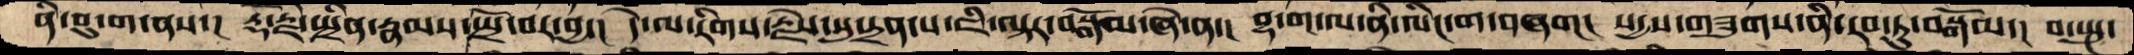ནི་བུ་ག་ནས་།  རྡོ་རྗེ་སྤྲིན་རྣམས་སྤྲོ་བར་བྱ་།  དེ་ལ་རིགས་རྗེས་སུ་དྲན་པ་ཇི་ལྟར་བསྒོམ་ཞེ་ན་།  བྷ་ག་ལ་ནི་ལིང་ག་བཞག།  སདྱས་་གཟུགས་ནི་རབ་ཏུ་བསྒོམ་།  བ་སྤུ་
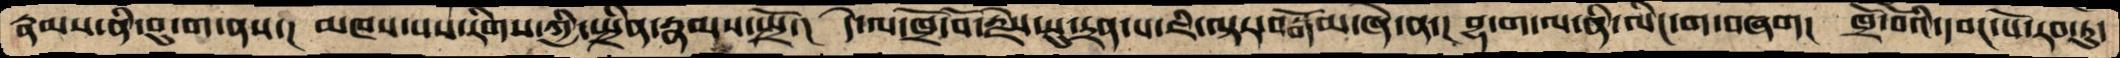རྣམས་ནི་བུ་ག་ནས་།  མཁས་པས་རིགས་ཀྱི་སྤྲིན་རྣམས་སྤྲོ་།  དེ་ལ་ཁྲོ་བོ་རྗེས་སུ་དྲན་པ་ཇི་ལྟར་བསྒོམ་ཞེ་ན་།  བྷ་ག་ལ་ནི་ལིང་ག་བཞག།   ཁྲོ་བོའི་དབང་པོ་རབ་ཏུ་
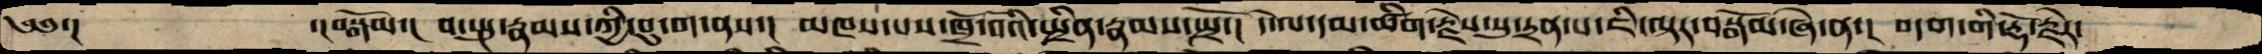༄༅་།    ་།བསྒོམ་།  བ་སྤུ་རྣམས་ཀྱི་བུ་ག་ནས་།  མཁས་པས་ཁྲོ་བོའི་སྤྲིན་རྣམས་སྤྲོ་།  དེ་ལ་དམ་ཚིག་རྗེས་སུ་དྲན་པ་ཇི་ལྟར་བསྒོམ་ཞེ་ན་།  བདག་གི་རྡོ་རྗེར་
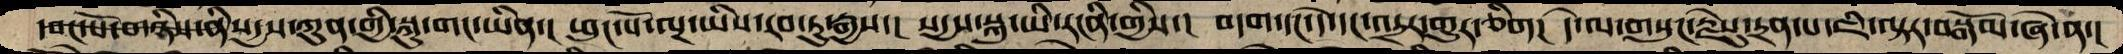དབང་པོ་གཉིས་ནི་སདྱས་ཀུན་གྱི་སྐུ་གང་ཡིན་།  ཕུང་པོ་ལྔ་ཡིས་རབ་ཏུ་རྒྱས་།  སདྱས་སྐུ་ཡི་རངིན་གྱིས་།  བདག་དང་དེ་དང་འདྲར་གྱུར་ཅིག།  དེ་ལ་གསུང་རྗེསུ་དྲན་པ་ཇི་ལྟརབསྒོམ་ཞེ་ན་།
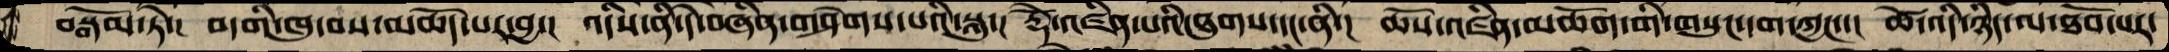བསྒོམ་ཏེ་།  བདགི་ཁུ་བས་མཆོད་པར་བྱ་།  འདིས་ནི་དེ་བཞིན་གཤེགས་པའི་སྐུ་།  རྡོེ་འཛིན་པའི་ཐུགས་དང་ནི་།  ཆོས་འཛིན་མཆོག་གི་གསུང་དག་ཀྱང་་།  ཚེ་འདི་ཉིད་ལ་ཐོབ་པར་
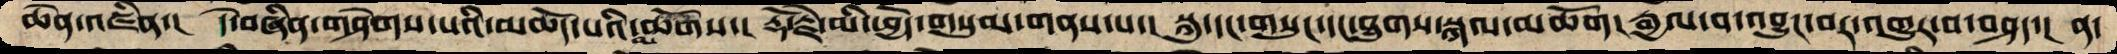ཆེན་འཛིན་།  དེ་བཞིན་གཤེགས་པའི་མཆོད་པའི་མཆོགས་།  རྡོ་རྗེ་མི་ཕྱེད་གསུམ་གནས་པ་། སྐུ་དང་གསུང་དང་ཐུགས་སྐལ་མཆོག། རྒྱལ་བ་འབྱུང་བར་འགྱུར་བ་བཤད་། ན་
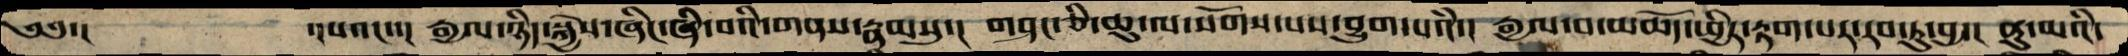༄༅་།    ་།པའང་་།  རྒྱལ་ཉིད་སྐྱེས་ཞིང་ཞི་བའི་གནས་རྣམསུ་།  གཤང་ཅི་ཆུ་ལ་སོགས་པས་བྱུག་པའཾ་།  རྒྱལ་བ་མཆོད་ཕྱིར་རྟག་པར་རབ་ཏུ་བྱ་།  ནུ་མའི་
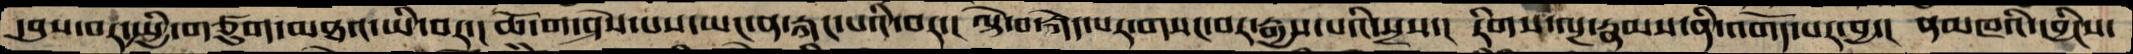དབུས་བར་སྤྱི་གཙུག་མཐའ་ཡི་བར་། ཆོ་ག་ཤེས་པས་ཡང་ན་རྐང་པའི་བར་། ལྟེ་བ་རྐེད་པར་གསང་བར་རྒྱས་པའི་སྲས་། རིགས་ལྔ་རྣམས་ནི་འགོད་པར་བྱ་། ནམཁའི་དབྱིངས་
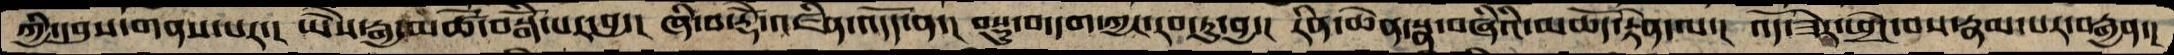ཀྱི་དབུས་གནས་པར་།  ཡཻས་རྒྱ་མཚོ་བསྒོཾ་པར་བྱ་།  ཞི་བ་རྡོེ་འཛིན་འདོད་ན་།  བསྡུ་བ་དག་ཀྱང་རབ་ཏུ་བྱ་།  རིན་ཆེན་སྣ་བཞིའི་མཆོད་རྟེན་ལ་།  འོད་ཟེར་འཕྲེང་བས་རྣམ་པར་བརྒྱན་།
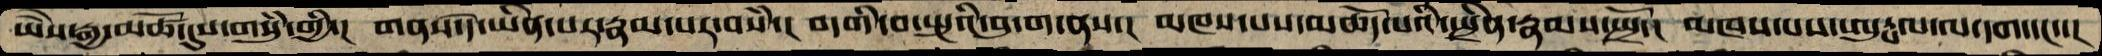ཡཻས་རྒྱ་མཚོ་དུས་གསུཾ་གྱི་།  གནས་དེ་ཡིན་པར་རྣམ་པར་བསཾ་། བདགི་བ་སྤུའི་བུ་ག་ནས་། མཁས་པས་མཆོད་པའི་སྤྲིན་རྣམས་སྤྲོ་།  མཁས་པས་ཨུཏྤལ་ལ་དག་དང་་།
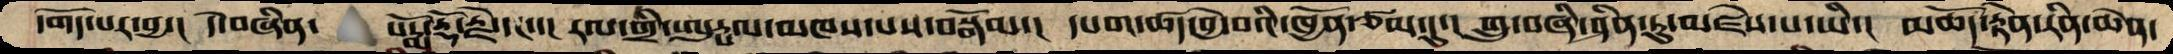དགོད་པར་བྱ་། དེ་བཞིན་   པདྨོ་རྡོ་རྗེ་དང་་། རལ་གྲི་ཨུཏྤལ་མཁས་པས་བསྒོམ་། དཔག་ཚད་བྱེ་བའི་ཁྱོན་ཙམ་དུ་། གྲུ་བཞི་ཤིན་ཏུ་མཛེས་པ་ཡི་།  མཆོད་རྟེན་རིན་ཆེན་
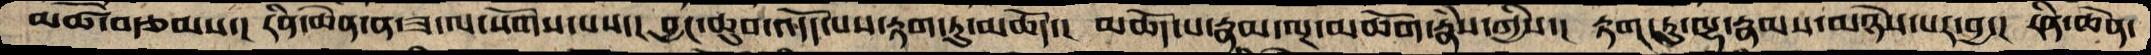མཚོ་བརྩམས་།  རིན་ཆེན་ན་ཟ་ལ་སོགས་པས་།  བྱང་ཆུབ་འདོད་པས་རྟག་ཏུ་མཆོད་།  མཆོད་པ་རྣམ་ལྔ་མཆོག་རྣཾས་ཀྱིས་།  རྟག་ཏུ་ལྷ་རྣམས་ཉེས་པར་བྱ་།  རིན་ཆེན་
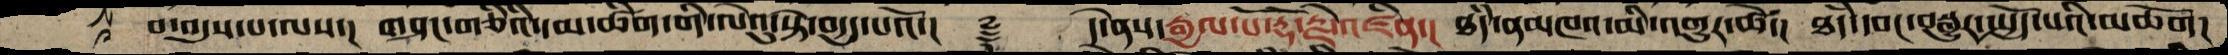བ་འདུས་པ་ལས་། གཤང་གཅིའི་དམ་ཚིག་གི་ལེའུ་སྟེ་བདྱད་པའོ་།  ༈  དེ་ནས་རྒྱལ་པོ་རྡོ་རྗེ་འཛིན་། ཐཾད་ནམཁའ་མི་འགྱུར་ཚེ་། ཐཾད་དབང་བསྒྱུར་སྤྱོད་པའི་མཆོག།
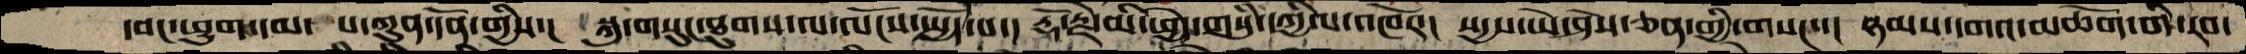དབང་ཕྱུག་དམ་ པ་ཀུན་དོན་གྱིས་།  སྐུ་གསུང་ཐུགས་ལ་ལོངས་སྤྱོད་པ་།  རྡོ་རྗེ་མི་ཕྱེད་གསུཾ་དཀྱིལ་འཁོར་།  སདྱས་ཡེ་ཤེས་ཅན་གྱི་གསང་་།  ཉམས་དགའ་མཆོག་གི་རབ་
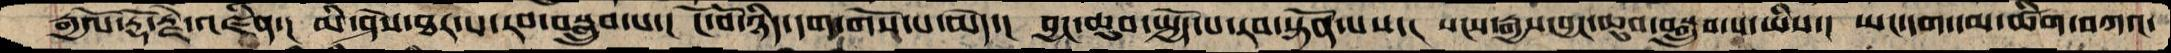རྒྱལོ་རྡོ་རྗེ་འཛིན་།  མི་ཤེས་ཐར་པ་རབ་བསྒྲུབ་པ་།  ངོ་བོ་ཉིད་དག་གསོ་པ་མེད་།  བྱང་ཆུབ་སྤྱོད་པ་རབ་སྟོན་པས་། སངས་རྒྱས་བྱང་ཆུབ་བསྒྲུབ་པ་ཡིས་།  ཡང་དག་དམ་ཚིག་བཀའ་
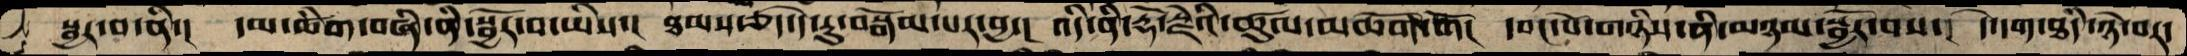སྦྱར་བ་ནི་། དམ་ཚིག་བཞི་ནི་སྦྱོར་བ་ཡིས་། ཐམས་ཅད་དེ་རུ་བསྒོམ་པར་བྱ་། འདི་ནི་རྡོ་རྗེའི་ཚུལ་མཆོག་གོ། དབང་པོ་གཉིས་ནི་མཉམ་སྦྱོར་བས་། དེ་དག་ཐཾད་ཉེ་བར་
